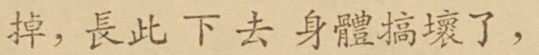掉，長此下去身體搞壞了，
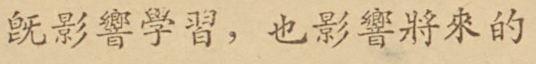旣影響學習，也影響將來的
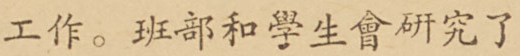工作。班部和學生會研究了
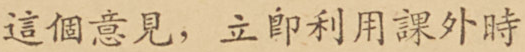這個意見，立卽利用課外時
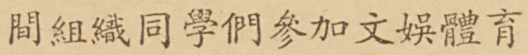間組織同學們參加文娛體育
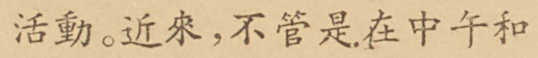活動。進來，不管是在中午和
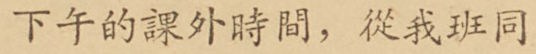下午的課外時間，從我班同
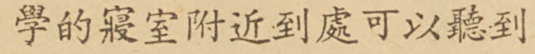學的寢室附近到處可以聽到
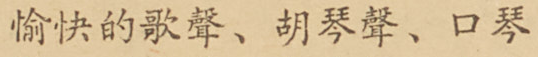愉快的歌聲、胡琴聲、口琴
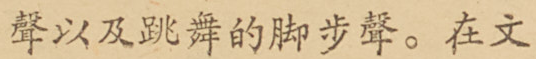聲以及跳舞的腳步聲。在文
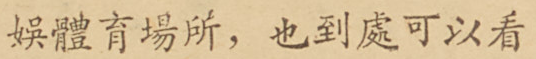娛體育場所，也到處可以看
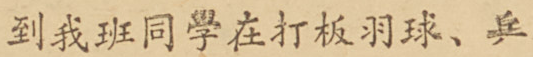到我班同學在打板羽球、乒
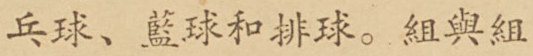乓球、籃球和排球。組與組
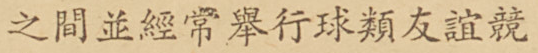之間並經常舉行球類友誼競
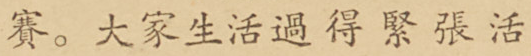賽。大家生活過得緊張活
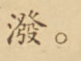潑。
